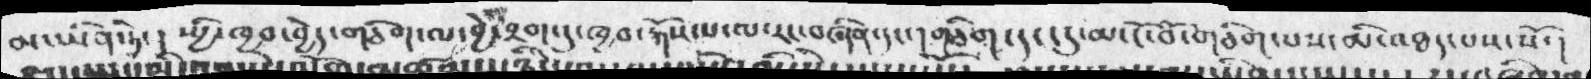མ་ཡིན་ཏེ་།    ཡྱི་ཁྱབ་བྱེད་གཅིག་ལ་བྱེ་བྲག་དུ་ཁྱབ་རྐོས་པ་ལ་རང་བཞིན་དང་།  གཅིག་དང་དུ་མ་ངོ་བོ་གཅིག་པས་མི་འཐད་པས་སོ་།
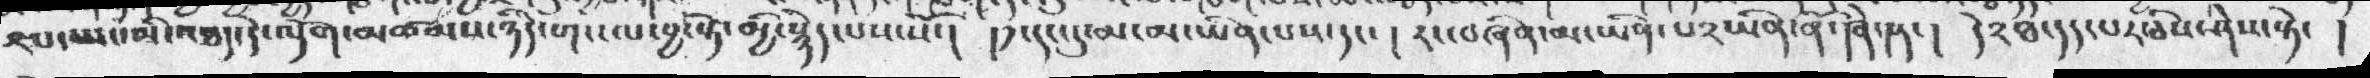༢པ་ཡང་མི་འཐད་དེ་ལྡོག་མཚམས་ཉིད་གང་ལ་བྱ་སྟེ་མྱི་སྙེད་པས་སོ་།   ། ༡་དང་དུ་མ་མ་ཡིན་པས་དང་།   རང་བཞིན་མ་ཡིན་པ༢ཡིན་ནོ་།ཞེ་ན་།  དེ༢ཐ་དད་པར་ཅེས་ཤེས་སྟེ་ །
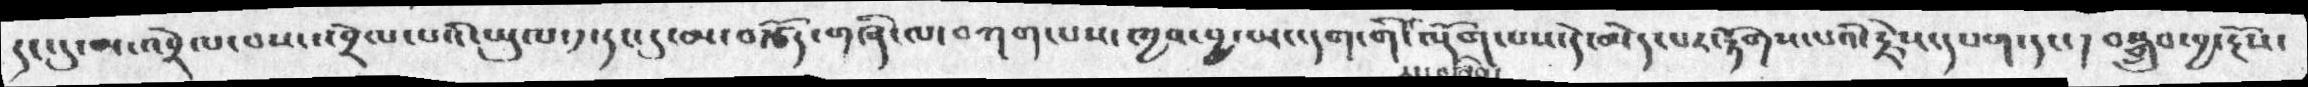དང་དུ་མ་འབྲེལ་བས་འབྲེལ་པའི་ཡུལ་༡་དང་དུ་མ་བརྩོད་གཞི་ལ་བཀག་པས་ཁྱབ་བྱ་ཡང་དག་གི་ལྡོག་པས་དེ་མེད་པར་རྟོགས་པའི་རྗེས་དཔག་དང་།  བསྒྲུབ་བྱ་རྔོས་
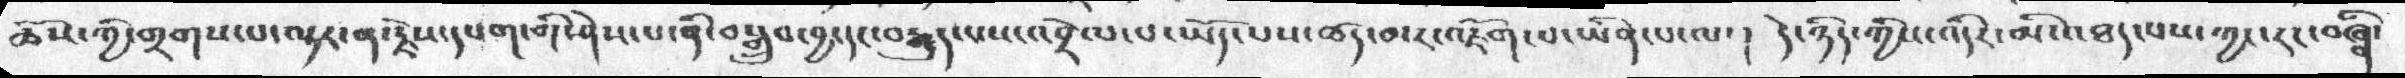ཆོས་ཀྱི་གྲགས་པ་ལྟར་ན་རྗེས་དཔག་གི་ཤེས་པ་ནི་བསྒྲུབ་བྱ་དང་བརྒྱུད་པས་འབྲེལ་པ་ཡོད་པས་ཚད་མར་འཇོག་པ་ཡིན་པ་ལ་།   དེ་ཉིད་ཀྱིས་འདིར་མི་འཐད་པས་ཀྱང་རང་བཞིན་
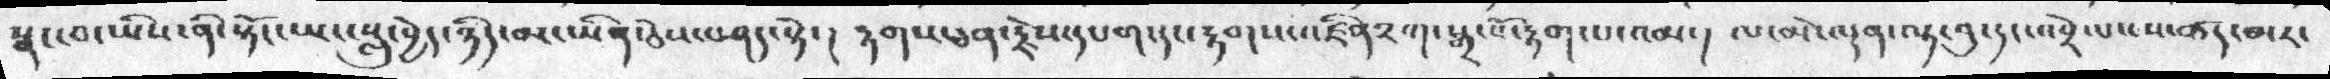སྣང་བ་ཡིས་ནི་སྟོང་ཡང་སླུ་བྱེད་ཉིད་མ་ཡིན་ཅེས་བཤད་སྟེ་།  རྟགས་ཅན་རྗེས་དཔག་དང་རྟགས་འཛིན༢ཀ་སྒྲ་སོ་རྟག་པ་འམ་།  ལ་མེ་ལྡན་ལྟ་བུ་དང་འབྲེལ་པ་ཚད་མར་
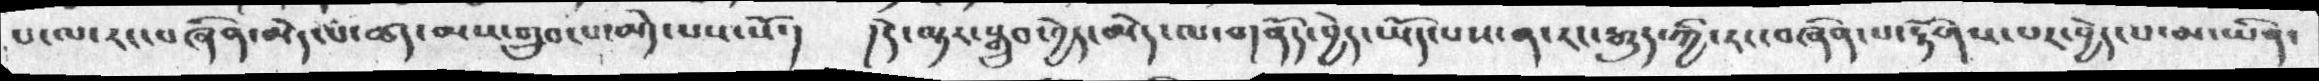པ་ལ་རང་བཞིན་མེད་པ་ཚད་མས་གྲུབ་པ་མེད་པས་སོ་།  །དེ་ལྟར་སྒྲུབ་བྱེད་མེད་ལ་གནོད་བྱེད་ཡོད་པས་ན་རང་རྒྱུད་ཀྱི་རང་བཞིན་པ་རྟོགས་པར་བྱེད་པ་མ་ཡིན་
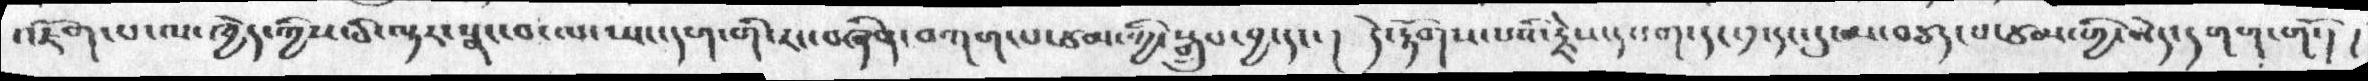འཇོག་པ་ལ་ཁྱེད་ཀྱིས་ཅི་ལྟར་སྣང་བ་ལ་ཡང་དག་གི་རང་བཞིན་བཀག་པ་ཙམ་ཀྱི་སྒྲུབ་བྱ་དང་།  དེ་རྟོགས་པའི་རྗེས་དཔག་དང་༡་དང་དུ་མ་བཅད་པ་ཙམ་གྱི་མེད་དགག་གོ་། །
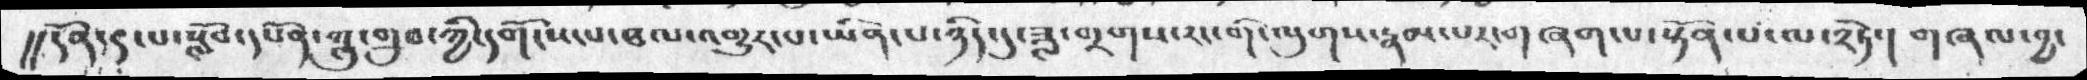།།དོན་དུ་པ་སློབ་དཔོན་ཀླུ་གྲུབ་ཀྱི་དགོངས་པ་ཐལ་འགྱུར་པ་ཡིན་པ་ཉིད་དུ་ཟླ་གྲགས་རང་གི་ལུགས་རྣམ་པར་གཞག་པ་སྟོན་པ་ལ་༢ཏེ་། གཞལ་བྱ་
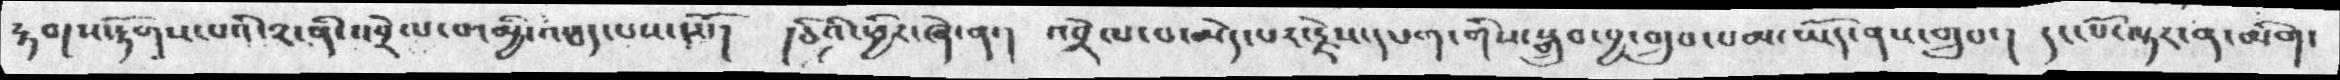རྟགས་རྟོགས་པའི་༢་ནི་འབྲེལ་བ་མྱི་འཐད་པས་སོ་།  །ཅིའི་ཕྱིར་ཞེ་ན་།  འབྲེལ་པ་མེད་པར་རྗེས་དཔག་གིས་སྒྲུབ་བྱ་གྲུབ་པམ་ཡོད་ནས་གྲུབ་།  དང་པོ་ལྟར་ན་མིག་
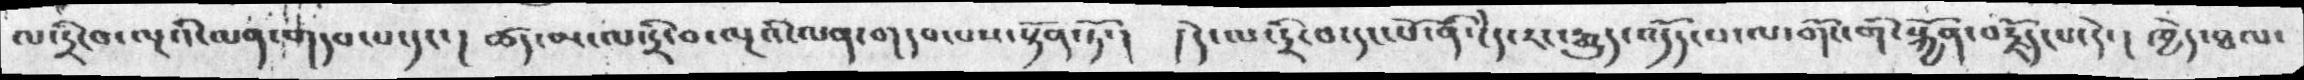ལ་དྲི་བ་ལྔའི་ལན་གདབ་པ་དང་།  ཚད་མ་ལ་དྲི་བ་ལྔའི་ལན་གདབ་པས་སྟོན་ཏོ་།  །དེ་ལ་དྲི་བ་དང་པོ་ནི་ངེད་རང་རྒྱུད་འདོད་པ་ལ་གོང་གི་སྐྱོན་བརྗོད་པ་དེ་།  ཁྱེད་ཐལ་
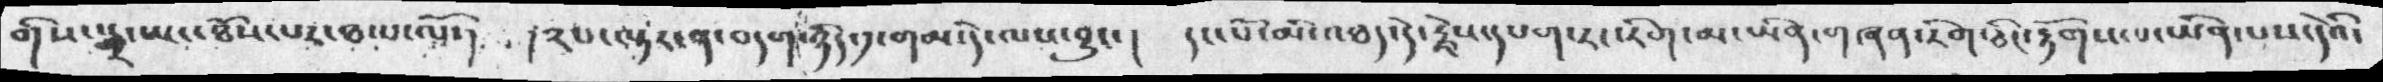གིས་སྒྲ་ཡང་ཐོས་པར་ཐལ་ལོ་།  །༢པ་ལྟར་ན་བདག་ཉིད་༡་གམ་དེ་ལས་བྱུང་།  དང་པོ་མི་འཐད་དེ་རྗེས་དཔག་རང་རིག་མ་ཡིན་གཞན་རིག་ཅིང་རྟོགས་པ་ཡིན་པས་དེའི་
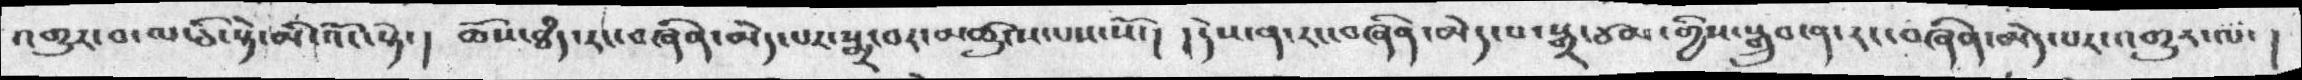འགྱུར་བ་ལ་ཅི་སྟེ་མི་འོང་སྟེ་།  ཆོས་ཐཾད་རང་བཞིན་མེད་པར་སྨྲ་བར་མཚུངས་པས་སོ་།  །དེས་ན་རང་བཞིན་མེད་པ་སྒྲ་ཙམ་གྱིས་སྒྲུབ་ན་རང་བཞིན་མེདཔར་འགྱུར་ལ་།
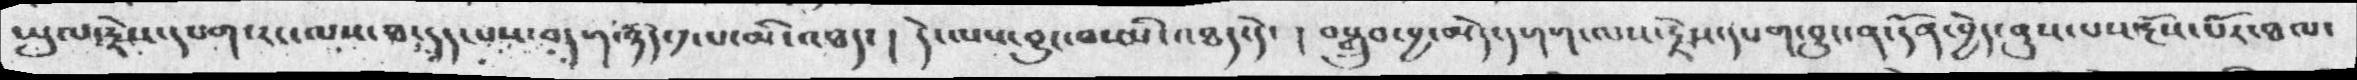ཡུལ་རྗེས་དཔག་རང་ལས་ཐ་དད་པས་བདག་ཉིད་༡་པ་མི་འཐད་། དེ་ལས་བྱུང་བ་མི་འཐད་དེ་ ། བསྒྲུབ་བྱ་མེད་དགག་ལས་རྗེས་དཔག་བྱུང་ན་དོན་བྱེད་ནུས་པས་རྔོས་པོར་ཐལ་
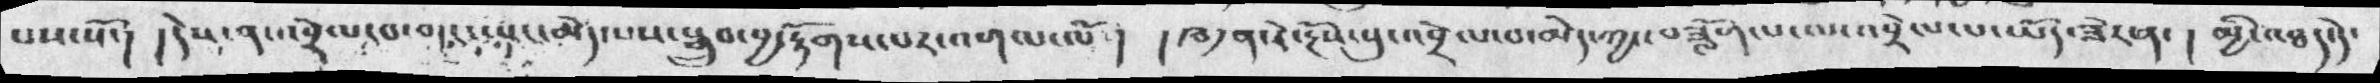པས་སོ་།  །དེས་ན་འབྲེལ་པ་གང་ཡང་མེད་པས་སྒྲུབ་བྱ་རྟོགས་པར་འགལ་ལོ་། །ཁ༡ན་རེ་རྔོས་སུ་འབྲེལ་བ་མེད་ཀྱང་བཟློག་པ་ལ་འབྲེལ་པ་ཡོད་ཟེར་ན་ ། མྱི་འཐད་དེ་
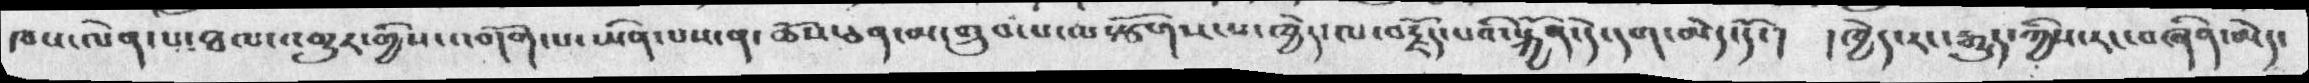ཁས་ལེན་པ་ཐལ་འགྱུར་གྱིས་འགོག་པ་ཡིན་པས་ན་ཆོས་ཅན་མ་གྲུབ་པ་ལ་སྩོགས་པ་ཁྱེད་ལ་བརྗོད་པའི་སྐྱོན་དེ་དག་མེད་དོ་།  །ཁྱེད་རང་རྒྱུད་ཀྱིས་རང་བཞིན་མེད་
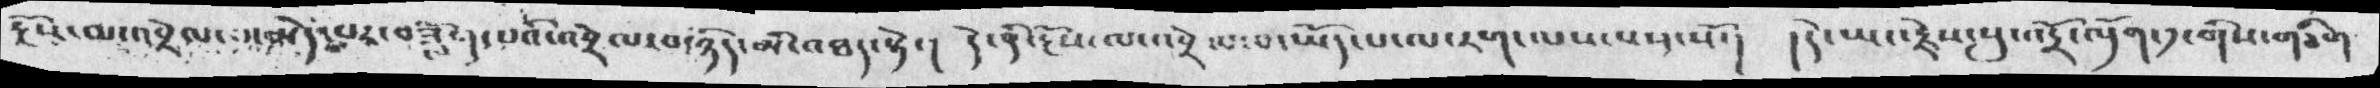རྔོས་མ་འབྲེལ་བ་མེད་པར་བཟློག་པཔའི་འབྲེལ་བ་ཉིད་མི་འཐད་སྟེ་། དེ་ནི་རྔོས་ལ་འབྲེལ་བ་ཡོད་པ་ལ་རག་ལས་པས་སོ་།  །དེ་ཡང་རྗེས་སུ་འདྲོ་ལྡོག་༡་གིས་གཅིག
